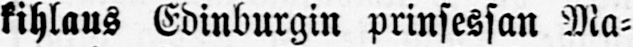kihlaus Edinburgin prinsessan Ma-
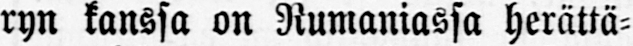ryn kanssa on Rumaniassa herättä-
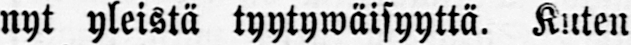nyt yleistä tyytywäisyyttä. Kuten
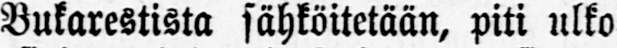Bukarestista sähköitetään, piti ulko-
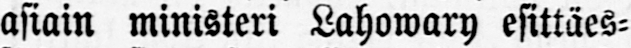asiain ministeri Lahowary esittäes-
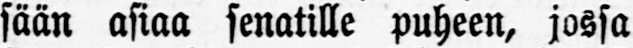sään asiaa senatille puheen, jossa
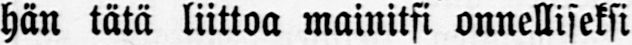hän tätä liittoa mainitsi onnelliseksi
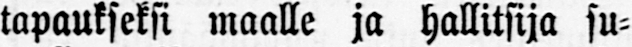tapaukseksi maalle ja hallitsija su-
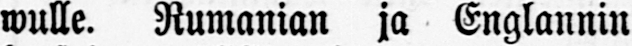wulle. Rumanian ja Englannin
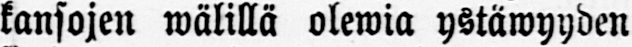kansojen wälillä olewia ystäwyyden
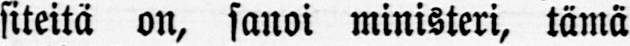siteitä on, sanoi ministeri, tämä
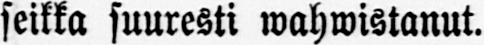seikka suuresti wahwistanut.
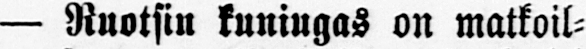— Ruotsin kuningas on matkoil-
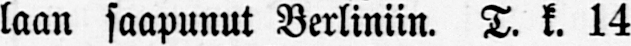laan saapunut Berliniin. T. k. 14
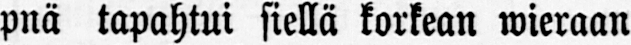pnä tapahtui siellä korkean wieraan
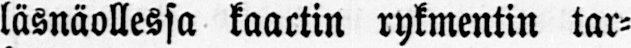läsnäollessa kaartin rykmentin tar-
